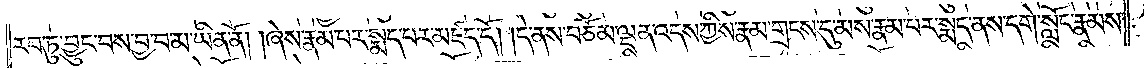རབ་ཏུ་བྱུང་བས་བྱ་བ་མ་ཡིན་ནོ། །ཞེས་རྣམ་པར་སྨད་པར་མཛད་དོ། །དེ་ནས་བཅོམ་ལྡན་འདས་ཀྱིས་རྣམ་གྲངས་དུ་མས་རྣམ་པར་སྨད་ནས་དགེ་སློང་རྣམས་
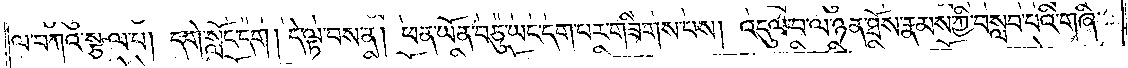ལ་བཀའ་སྩལ་པ། དགེ་སློང་དག །དེ་ལྟ་བས་ན། ཕན་ཡོན་བཅུ་ཡང་དག་པར་གཟིགས་པས། འདུལ་བ་ལ་ཉན་ཐོས་རྣམས་ཀྱི་བསླབ་པའི་གཞི་
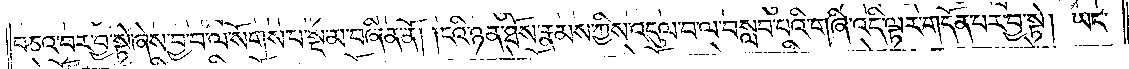བཅའ་བར་བྱ་སྟེ་ཞེས་བྱ་བ་ལ་སོགས་པ་སྔ་མ་བཞིན་ནོ། །ངའི་ཉན་ཐོས་རྣམས་ཀྱིས་འདུལ་བ་ལ་བསླབ་པའི་གཞི་འདི་ལྟར་གདོན་པར་བྱ་སྟེ། ཡང་
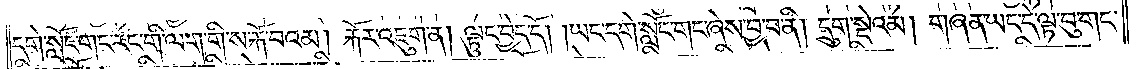དགེ་སློང་གང་རང་གི་ལག་གི་ས་རྐོ་བའམ། རྐོར་འཇུག་ན། ལྟུང་བྱེད་དོ། །ཡང་དགེ་སློང་གང་ཞེས་བྱ་བ་ནི། དྲུག་སྡེའམ། གཞན་ཡང་དེ་ལྟ་བུ་གང་
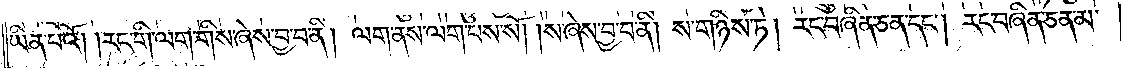ཡིན་པའོ། །རང་གི་ལག་གིས་ཞེས་བྱ་བ་ནི། ལག་ནས་ལག་པས་སོ། །ས་ཞེས་བྱ་བ་ནི། ས་གཉིས་ཏེ། རང་བཞིན་ཅན་དང༌། རང་བཞིན་ཅན་མ་
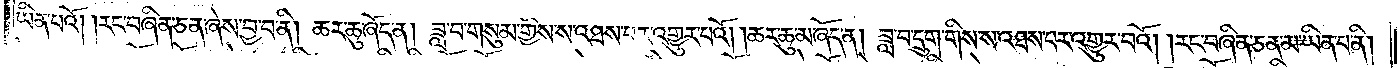ཡིན་པའོ། །རང་བཞིན་ཅན་ཞེས་བྱ་བ་ནི། ཆར་ཆུ་ཞོད་ན། ཟླ་བ་གསུམ་གྱིས་ས་འཐས་པར་འགྱུར་པའོ། །ཆར་ཆུ་མ་ཞོད་ན། ཟླ་བ་དྲུག་གིས་ས་འཐས་པར་འགྱུར་བའོ། །རང་བཞིན་ཅན་མ་ཡིན་པ་ནི།
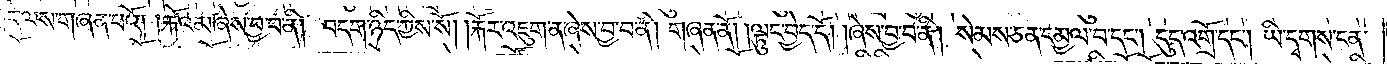དེ་ལས་གཞན་པའོ། །རྐོའམ་ཞེས་བྱ་བ་ནི། བདག་ཉིད་ཀྱིས་སོ། །རྐོར་འཇུག་ན་ཞེས་བྱ་བ་ནི། གཞན་ནོ། །ལྟུང་བྱེད་དོ། །ཞེས་བྱ་བ་ནི། སེམས་ཅན་དམྱལ་བ་དང༌། དུད་འགྲོ་དང༌། ཡི་དྭགས་ངན་
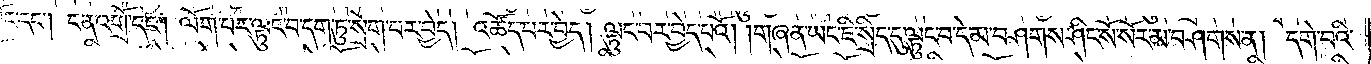ང་དང༌། ངན་འགྲོ་དང༌། ལོག་པར་ལྟུང་བ་དག་ཏུ་སྲེག་པར་བྱེད། འཚོད་པར་བྱེད། ལྟུང་བར་བྱེད་པའོ། །གཞན་ཡང་ཇི་སྲིད་དུ་ལྟུང་བ་དེ་མ་བཤགས་ཤིང་སོ་སོར་མ་བཤགས་ན། དགེ་བའི་
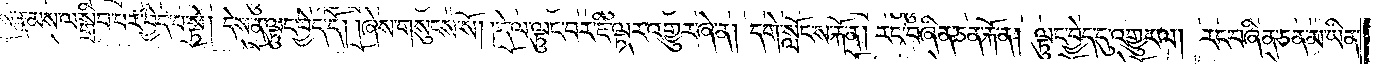ཆོས་རྣམས་ལ་སྒྲིབ་པར་བྱེད་པ་སྟེ། དེས་ན་ལྟུང་བྱེད་དོ། །ཞེས་གསུངས་སོ། །དེ་ལ་ལྟུང་བར་ཇི་ལྟར་འགྱུར་ཞེ་ན། དགེ་སློང་ས་རྐོ་ན། རང་བཞིན་ཅན་རྐོ་ན། ལྟུང་བྱེད་དུ་འགྱུར་ལ། རང་བཞིན་ཅན་མ་ཡིན་
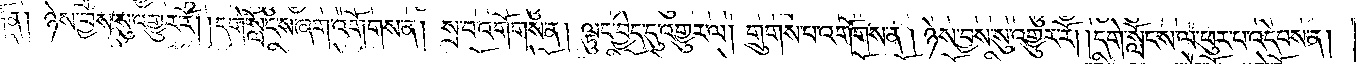ན། ཉེས་བྱས་སུ་འགྱུར་རོ། །དགེ་སློང་ས་ཞག་འགོགས་ན། སྲ་བ་འགོགས་ན། ལྟུང་བྱེད་དུ་འགྱུར་ལ། གྲུགས་པ་འགོགས་ན། ཉེས་བྱས་སུ་འགྱུར་རོ། །དགེ་སློང་ས་ལ་ཕུར་པ་འདེབས་ན།
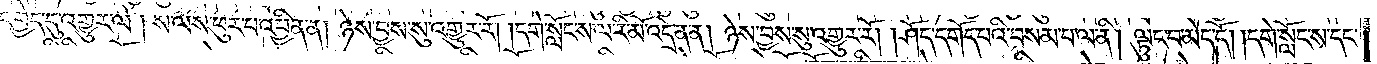ང་བྱེད་དུ་འགྱུར་ལ། ས་ལས་ཕུར་པ་འབྱིན་ན། ཉེས་བྱས་སུ་འགྱུར་རོ། །དགེ་སློང་ས་ལ་རི་མོ་འདྲེན་ན། ཉེས་བྱས་སུ་འགྱུར་རོ། །ཤོད་དགོད་པའི་བསམ་པ་ལ་ནི། ལྟུང་བ་མེད་དོ། །དགེ་སློང་ས་དང་
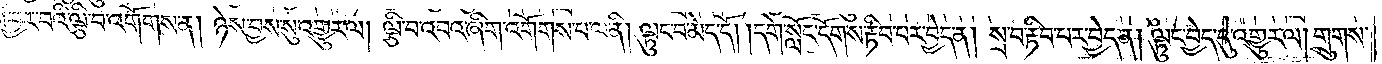འབྱར་བའི་ལྕི་བ་འགོགས་ན། ཉེས་བྱས་སུ་འགྱུར་ལ། ལྕི་བ་འབའ་ཞིག་འགོགས་པ་ལ་ནི། ལྟུང་བ་མེད་དོ། །དགེ་སློང་དོག་ས་རྟིབ་པར་བྱེད་ན། སྲ་བ་རྟིབ་པར་བྱེད་ན། ལྟུང་བྱེད་དུ་འགྱུར་ལ། གྲུགས་
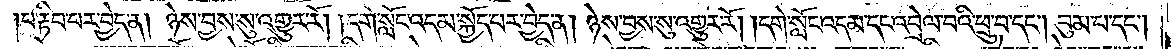པ་རྟིབ་པར་བྱེད་ན། ཉེས་བྱས་སུ་འགྱུར་རོ། །དགེ་སློང་འདམ་སྐྱོད་པར་བྱེད་ན། ཉེས་བྱས་སུ་འགྱུར་རོ། །དགེ་སློང་འདམ་དང་འབྲེལ་བའི་ཕྲུ་བ་དང༌། བུམ་པ་དང༌།
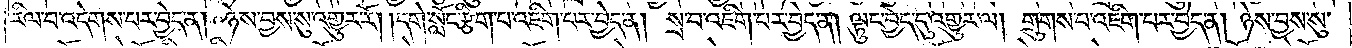རིལ་བ་འདེགས་པར་བྱེད་ན། ཉེས་བྱས་སུ་འགྱུར་རོ། །དགེ་སློང་རྩིག་པ་འཇིག་པར་བྱེད་ན། སྲ་བ་འཇིག་པར་བྱེད་ན། ལྟུང་བྱེད་དུ་འགྱུར་ལ། གྲུགས་པ་འཇིག་པར་བྱེད་ན། ཉེས་བྱས་སུ་
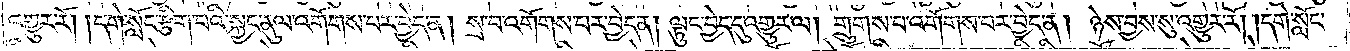འགྱུར་རོ། །དགེ་སློང་རྩིག་པའི་སྐྱང་ནུལ་འགོགས་པར་བྱེད་ན། སྲ་བ་འགོགས་པར་བྱེད་ན། ལྟུང་བྱེད་དུ་འགྱུར་ལ། གྲུགས་པ་འགོགས་པར་བྱེད་ན། ཉེས་བྱས་སུ་འགྱུར་རོ། །དགེ་སློང་
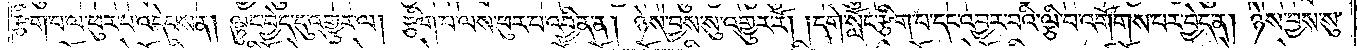རྩིག་པ་ལ་ཕུར་པ་འདེབས་ན། ལྟུང་བྱེད་དུ་འགྱུར་ལ། རྩིག་པ་ལས་ཕུར་པ་འབྱིན་ན། ཉེས་བྱས་སུ་འགྱུར་རོ། །དགེ་སློང་རྩིག་པ་དང་འབྱར་བའི་ལྕི་བ་འགོགས་པར་བྱེད་ན། ཉེས་བྱས་སུ་
